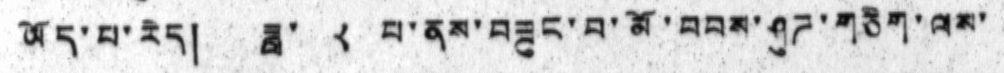ཡོད་པ་རེད། ཟླ་ ༨ པ་ནས་བཟུང་བ་མོ་བབས་ཤུཌ་གཅིག་ལས་
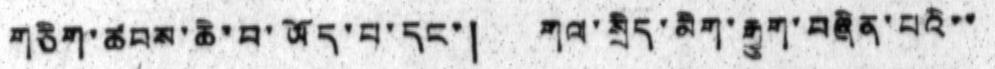གཅིག་ཚབས་ཆེ་བ་ཡོད་པ་དང་། གལ་སྲིད་མིག་རྒྱུག་བཞིན་པའི་་
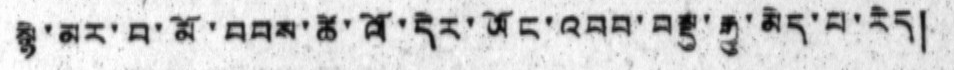སྙེ་མར་བ་མོ་བབས་ཚེ་ལོ་དེར་ཡོང་འབབ་བསྡུ་རྒྱུ་མེད་པ་རེད།
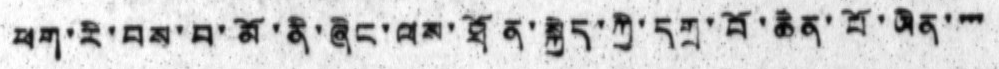ཕག་རི་བས་བ་མོ་ནི་ཞིང་ལས་ཐོན་སྐྱེད་ཀྱི་དགྲ་བོ་ཆེན་པོ་ཡིན་་་་
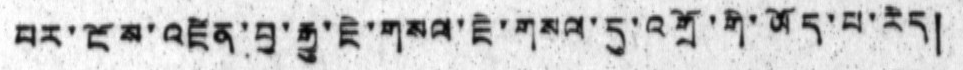པར་ངོས་འཛིན་བྱ་རྒྱུ་ཇེ་གསལ་ཇེ་གསལ་དུ་འགྲོ་གི་ཡོད་པ་རེད།
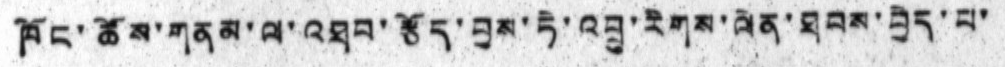ཁོང་ཚོས་གནམ་ལ་འཐབ་རྩོད་བྱས་ཏེ་འབྲུ་རིགས་ལེན་ཐབས་བྱེད་པ་
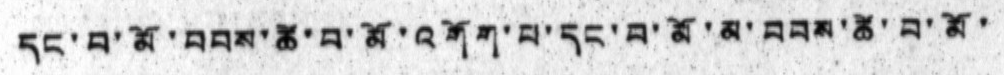དང་བ་མོ་བབས་ཆེ་བ་མོ་འགོག་པ་དང་བ་མོ་མ་བབས་ཆེ་བ་མོ་
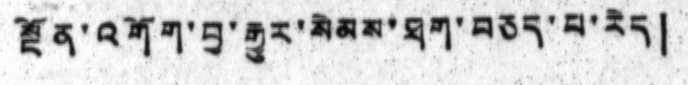སྔོན་འགོག་བྱ་རྒྱུར་སེམས་ཐག་བཅད་པ་རེད།
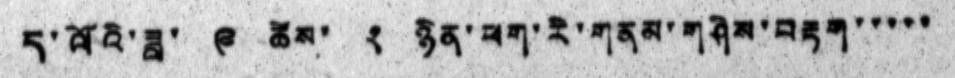ད་ལོའི་ཟླ་ ༩ ཚེས་ ༢ ཉིན་ཕག་རི་གནམ་གཤིས་བརྟག་་་་་
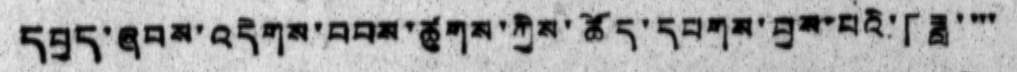དཔྱད་ཞབས་འདེགས་བབས་ཚུགས་ཀྱིས་ཚོད་དཔགས་བྱས་པའི་「ཟླ་་་་
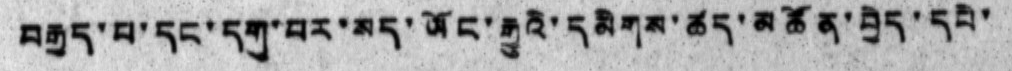བརྒྱད་པ་དང་དགུ་བར་སད་ཡོང་རྒྱུའི་དམིགས་ཚད་མཚོན་བྱེད་དཔེ་
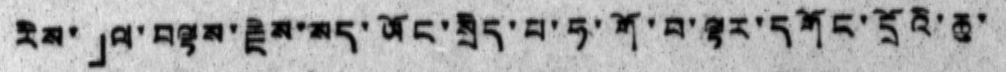རིས་ ｣ལ་བལྟས་རྗེས་སད་ཡོང་སྲིད་པ་ཧ་གོ་བ་ལྟར་དགོང་དྲོའི་ཆུ་
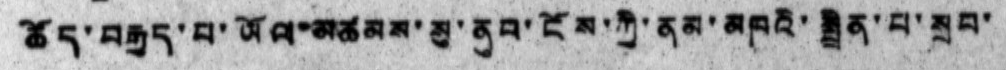ཚུད་བརྒྱད་པ་ཡོལ་མཚམས་སུ་ནུབ་ངོས་ཀྱི་ནམ་མཁའི་སྤྲིན་པ་སྲབ་
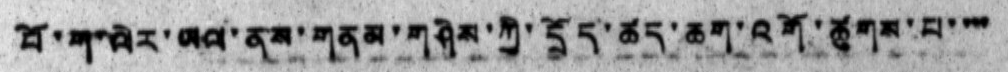བོ་ག་ལེར་ཡལ་ནས་གནམ་གཤིས་ཀྱི་དྲོད་ཚད་ཆག་འགོ་ཚུགས་པ་་་་
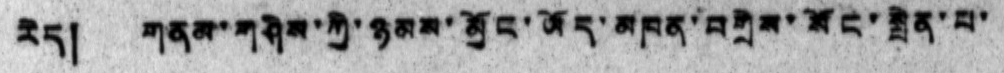རེད། གནམ་གཤིས་ཀྱི་ཉམས་མྱོང་ཡོད་མཁན་བགྲེས་སོང་སྤེན་པ་
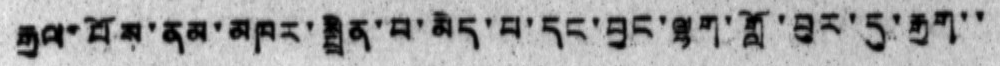རྒྱལ་པོས་ནམ་མཁར་སྤྲིན་པ་མེད་པ་དང་བྱང་ལྷག་གློ་བུར་དུ་རྒྱག་་
